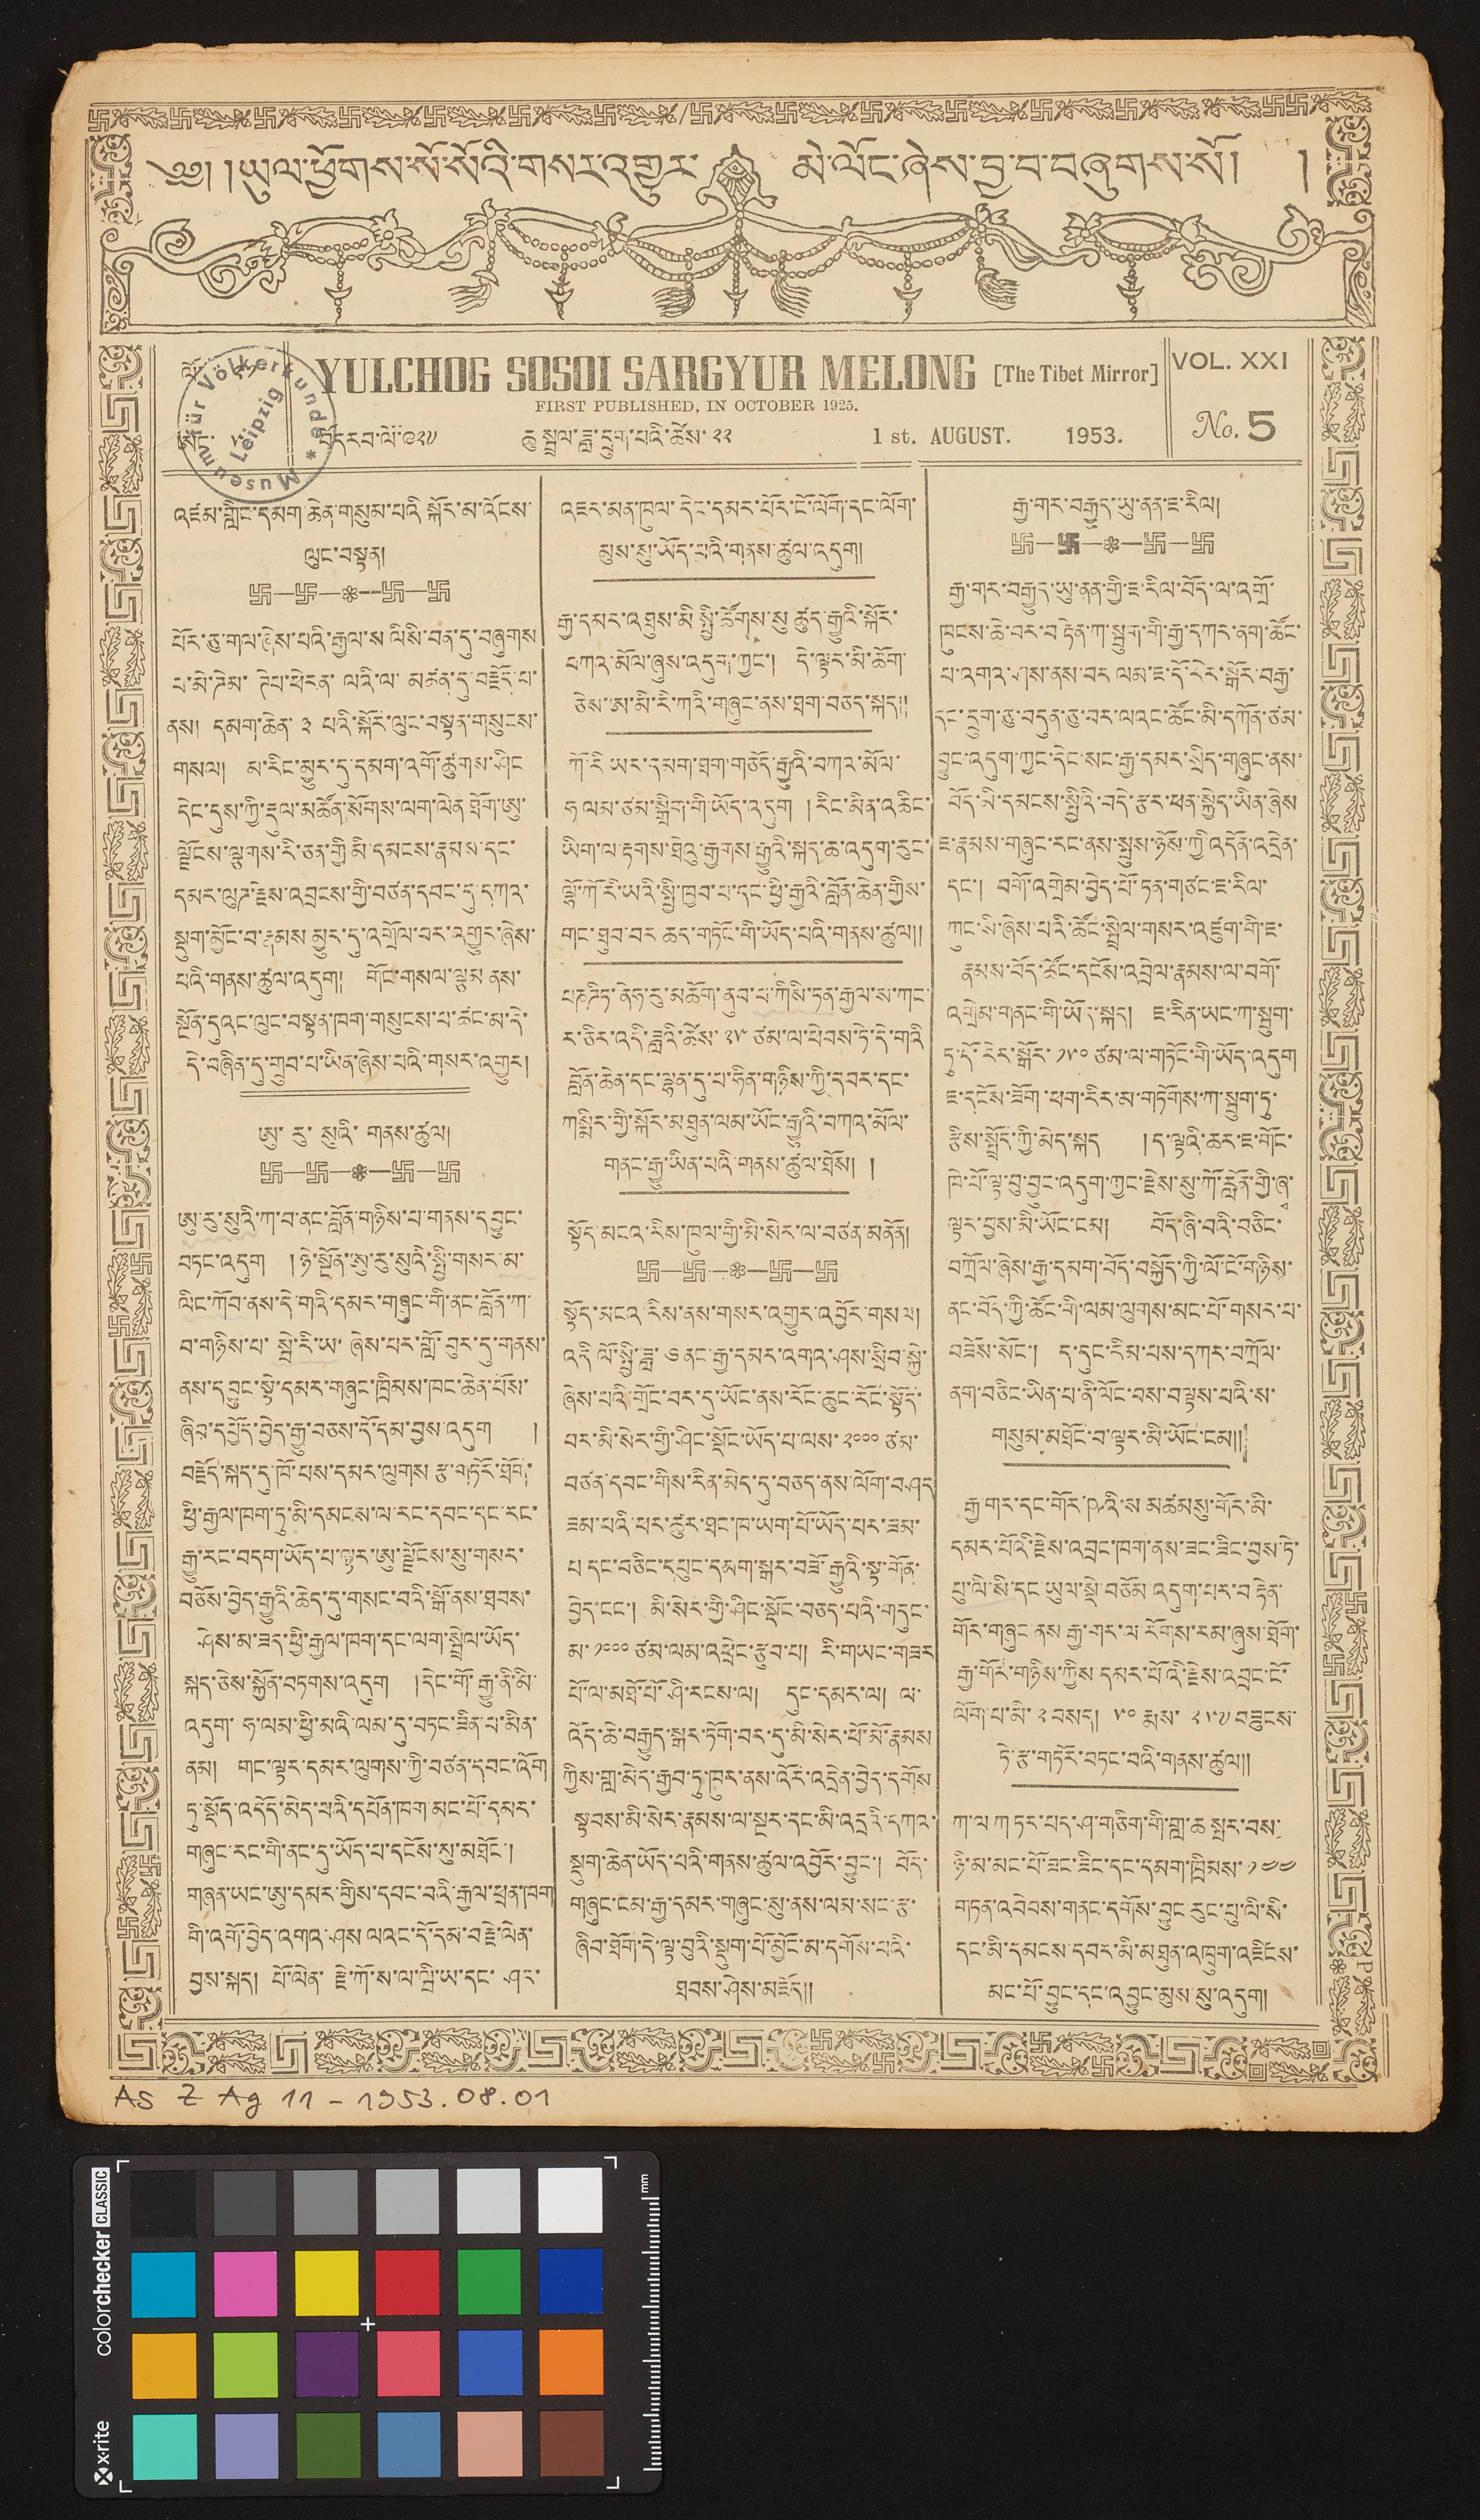༄༅། །ཡུལ་ཕྱོགས་སོ་སོའི་གསར་འགྱུར་ མེ་ལོང་ཞེས་བྱ་བ་བཞུགས་སོ། །
VOL. XXI
No. 5
ལོ་ ༢༡
ཨང་ ༥
YOLCHOG SOSOI SARGYUR MELONG. [The Tibet Mirror]
FIRST PUBLISHED, IN OCTOBER 1925.
བོད་རབ་ལོ་༩༢༧
ཆུ་སྤྲལ་ཟླ་དྲུག་པའི་ཚེས་ ༢༢
1st AUGUEST. 1953.
འཛམ་གླིང་དམག་ཆེན་གསུམ་པའི སྐོར་མ་འོངས་
ལུང་བསྟན།
པོར་ཅུ་གལ་ཞེས་པའི་རྒྱལ་ས ལིསི་བན་དུ་བཞུགས
པ་མེ་ཌེམ་ཊེཔ་ཕེརན་ལའི་ལ་མཚན་དུ་བརྗོད་པ་
ནས། དམག་ཆེན་ ༣ པའི་སྐོར་ལུང་བསྟན་གསུངས་
གསལ། མ་རིང་མྱུར་དུ་དམག་འགོ་ཚུགས་ཤིང་
དེང་དུས་ཀྱི་རྡུལ་མཚོན་སོགས་ལག་ལེན ཐོན་ཨུ་
ལྗོངས་ལྕགས་རི་ཅན་གྱི མི་དམངས་རྣམས་དང་
དམར་ལུཌ་རྗེས་འབྲངས་གྱི་བཙན་དབང་དུ་དཀའ་
སྡུག་མྱོང་བ་རྣམས མྱུར་དུ་འགྲོལ་བར་འགྱུར་ཞེས་
པའི་གནས་ཚུལ་འདུག།། གོང་གསལ་ལྕམ ནས་
སྔོན་དུའང་ལུང་བསྟན་ཁག་གསུངས་པ་ཚང་མ་དེ་
དེ་བཞིན་དུ་གྲུབ་པ་ཡིན་ཞེས་པའི་གསར་འགྱུར།
ཨུ་རུ་སུའི་གནས་ཚུལ།
ཨུ་རུ་སུའི་ཀ་བ་ནང་གཉིས་པ་གནས་དབྱུང་
བཏང་འདུག །ཉེ་སྔོན་ཨུ་རུ་སུའི་སྤྱི་གསར་མ་
ལིང་ཀོབ་ནས་དེ་གའི་དམར་གཞུང་གི་ནང་བློན་ཀ་
བ་གཉིས་པ་སྦེ་རི་ཡ་ཞེས་པར་གློ་བུར་དུ་གནས་
ནས་དབྱུང་སྟེ་དམར་གཞུང་ཁྲིམས་ཁང་ཆེན་པོས་
ཞིབ་དཔྱོད་བྱེད་རྒྱུ་བཅས་དོ་དམ་བྱས་འདུག །
བརྗོད་སྐད་དུ་ཁོ་པས་དམར་ལུགས རྩ་གཏོར་ཐོག་
ཕྱི་རྒྱལ་ཁག་ཏུ་མི་དམངས་ལ་རང་དབང་དང་རང་
རྒྱུ་རང་བདག་ཡོད་པ་ལྟར་ཨུ་ལྗོངས་གསར་
ནྕོས་བྱེད་རྒྱུའི་ཆེད་དུ་གསང་བའི་སྒོ་ནས་ཐབས་
ཤེས་མ་ཟད་ཕྱི་རྒྱལ་ཁག་དང་ལག་སྤྲེལ་ཡོད་
སྐད་ཅེས་སྐྱོན་བཏགས་འདུག།།དེང་གོ་རྒྱུ་ནི་མི་
འདུག་ཧ་ཨ་ལམ་ཕྱི་མིའི་ལམ་དུ་བཏང་ཟིན་པ་མིན་
ནམ། གང་ལྟར་དམར་ལུགས་ཀྱི་བཙན་དབང་འོག
ཏུ་སྡོད་འདོད་མེད་པའི་དཔོན་ཁག་མང་པོ་དམར་
གཞུང་རང་གི་ནང་དུ་ཡོད་པ་དངོས་སུ་མཐོང་།
གཞན་ཡང་ཨུ་དམར་གྱིས་དབང་བའི་རྒྱལ་ཕྲན་ཁག
གི་འགོ་བྱེད་འགའ་ཤས ལའང་དོ་དོམ་བརྗེ་ལེན་
བྱས་སྐད། པོ་ལེན་རྗེ་ཀོ་ས་ལ་ཝི་ཡ་དང་ཤར་
འཇར་མན་ཁུལ་དེང་དམར་པོར་ངོ་ལོག་དང་ལོག་
མུས་སུ་ཡོད་པའི་གནས་ཚུལ་འདུག།།
རྒྱ་དམར་འཐུས་མི སྤྱི་ཚོགས་སུ ཚུད་རྒྱུའི་སྐོར་
བཀའ་མོལ་ཞུས་འདུག་ཀྱང་། དེ་ལྟར་མི་ཆོག་
ཅེས་ཨ་མི་རི་ཀའི་གཞུང་ནས་ཐག་བཅད་སྐད།།
ཀོ་རི ཡར་དམག་ཐག་གཅོད་རྒྱུའི་བཀའ་མོལ་
ཧ ལམ་ཙམ་སྒྲིག་གི་ཡོད་འདུག།།རིང་མིན་འཆིང་
ཡིག་ལ་རྟགས་ཐེའུ་རྒྱགས་རྒྱུའི་སྐད་ཆ་འདུག་རུང་
ལྷོ་ཀོ་རི་ཡའི་སྤྱི་ཁྱབ་པ་དང་ཕྱི་རྒྱའི་བློན་ཆེན་གྱིས་
གང་ཐུབ་བར ཆད་གཏོང་གི་ཡོད་པའི་གནས་ཚུལ།།
པཎཌིཏ་ནེཧ་རུ་མཆོག་ནུབ་པ་ཀིསི་ཏན་རྒྱལ་ས་ཀང་
ར་ཅིར་འདི་ཟླའི་ཚེས་ ༢༥ ཙམ་ལ་ཕེབས་ཏེ་དེ་གའི
བློན་ཆེན་དང་ལྷན་དུ་པ་ཧིན་གཉིས་ཀྱི་དབར་དང་
ཀསྨིར་གྱི་སྐོར་མཐུན་ལམ་ཡོང་རྒྱུའི་བཀའ་མོལ་
གནང་རྒྱུ་ཡིན་པའི་གནས་ཚུལ་ཐོས།།
སྟོད་མངའ་རིས་ཁུལ་གྱི་མི་སེར་ལ་བཙན་མནོན།
སྟོད་མངའ་རིས་ནས་གསར་འགྱུར་འབྱོར་གསལ།
འདི་ལོ་སྤྱི་ཟླ་༦ནང་རྒྱ་དམར་འགའ་ཤས་སྲིབ་སྐྱེ་
ཞེས་པའི་གྲོང་བར་དུ་ཡོང་ནས་རོལ་ཆུང་རོང་སྟོད་
བར་མི་སེར་གྱི་ཤིང་སྡོང་ཡོད་པ་ལས་༢༠༠༠ཙམ་
བཙན་དབང་གིས་རིན་མེད་དུ་བཅད་ནས་ལོག་བཤད
ཟམ་པའི་ཕར་ཚུར་ཐང་ཁ་ཡག་པོ་ཡོད་པར་ཟམ་
པ དང་བཅིང་དཔུང་དམག་སྒར་བཟོ་རྒྱུའི་སྟ་གོན་
བྱེད་ངང་། མི་སེར་གྱི་ཤིང་སྡོང་བཅད་པའི་གདུང་
མ་༡༠༠༠ཙམ་ལམ་འཕྲེང་རྩུབ་པ། རི་གྱང་གཟར
པོ་ལ་མཐོ་པོ་ཤི་རངས་ལ། དུང་དམར་ལ། ལ་
འོད་ཆེ་བརྒྱུད་སྒར་ཏོག་བར་དུ་མི་སེར་ཕོ་མོ་རྣམས
ཀྱིས་གླ་མེད་རྒྱབ་ཏུ་ཁུར་ནས་འོར་འདྲེན་བྱེད་དགོས
སྟབས་མི་སེང་རྣམས་ལ་སྔར་དང་མི་འདྲའི་དཀའ་
སྡུག་ཆེན་ཡོད་པའི་གནས་ཚུལ་འབྱོར་བྱུང་། བོད་
གཞུང་ངམ་རྒྱ་དམར་གཞུང་སུ་ནས་ལམ་སང་རྩ་་
ཞིབ་ཐོག་དེ་ལྟ་བུའི་སྡུག་པོ་མྱོང་མ་དགོས་པའི་
ཐབས་ཤེས་མཛོད།།
རྒྱ་གར་བརྒྱུད་ཡུ་ནན་ཇ་རིལ།
རྒྱ་གར་བརྒྱུད་ཨུ་ནན་གྱི་ཇ་རིལ་བོད་ལ་འགྲོ་
ཁུངས་ཆེ་བར་བརྟེན་ཀ་སྤུག་གི་རྒྱ་དཀར་ནང་ཚོང་
པ་འགའ་ཤས་ནས་བར ལམ་ཇ་དོ་རེར་སྒོར་བརྒྱ་
དང་དྲུང་ཅུ་བདུན་ཅུ་པར་ལའང་ཚོང་མི་དཀོན་ཙམ་
བྱུང་འདུག་ཀྱང་དེང་སང་རྒྱ་དམར་སྲིད་གཞུང་ནས་
བོད་མི་དམངས་སྤྱིའི་བདེ་རྩར་ཕན་སྐྱེད་ཡིན་ཞེས
ཇ་རྣམས་གཞུང་རང་ནས་སྤུས་ཉོས་ཀྱི་འདོན་འདྲེན་
དང་། བགོ་འགྲེམ་བྱེད་པོ་ཏན་གཙང་ཇ་རིལ་
ཀུང་སི་ཞེས་པའི་ཚོང་སྤྲེལ་གསར་འཛུག་གི་ཇ་
རྣམས་བོད་ཚོང་དངོས་འབྲེལ་རྣམས་ལ་བགོ་
འགྲེམ་གནང་གི་ཡོད་སྐད། ཇ་རིན་ཡང་ཀ་སྤུག་
ཏུ་དོ་རེར་སྒོར་ ༡༥༠ ཙམ་ལ་གཏོང་གི་ཡོད་འདུག
ཇ་དངོས་ཟོག་ཕག་རིང་མ་གཏོགས་ཀ་སྤུག་ཏུ་
རྩིས་སྤྲོད་ཀྱི་མེད་སྐད །ད་ལྟའི་ཆར་ཇ་གོང་
ཁེ་པོ་ལྟ་བུ་བྱུང་འདུག་ཀྱང་རྗེས་སུ་ཀོ་རློང་གྱི་ཞྭ་
ལྟར་བྱས་མི་ཡོང་ངམ། བོད་ཞི་བའི་བཅིང་
བཀྲོལ་ཞེས་རྒྱ་དམག་བོད་སྐྱོད་ཀྱི་ལོ་ངོ་གཉིས་
ནང་བོད་ཀྱི་ཚོང་གི་ལམ་ལུགས་མང་པོ་གསར་པ་
བཟོས་སོང་། ད་དུང་རིམ་པས་དཀར་བཀྲོལ་
ནག་བཅིང་ཡིན་པ་ནི་ལོང་བས་བལྟས་པའི་ས་
གསུམ་མཐོང་བ་ལྟར་མི་ཡོང་ངམ།།
རྒྱ་གར་དང་གོར་ཥའི་ས་མཚུམསུ་གོར་མི་
དམར་པོའི་རྗེས་འབྲིང་ཁག་ནས་ཟང་ཟིང་བྱས་ཏེ་
པུ་ལི་སི་དང་ཡུལ་སྡེ་བཅོམ་འདུག་པར་བརྟེན་
གོར་གཞུང་ནས་རྒྱ་གར་ལ་རོགས་རམ་ཞུས་ཐོག་
རྒྱ་གར་གཉིས་ཀྱིས་དམར་པོའི་རྗེས་འབྲང་ངོ་
ལོག་པ་མི་༢བསད། ༥༠ རྨས་ ༢༥༧བཟུངས་
ཏེ་རྩ་གཏོར་བཏང་བའི་གནས་ཚུལ།།
ཀ་ལ ཀ ཏར་པད་གཅིག་གི་གླ་ཆ་སྤར་བས་
ཉི་མ་མང་པོ་ཟང་ཟིང་དང་དམག་ཁྲིམས་༡༤༤
གཏན་འབེབས་གནང་དགོས་བྱུང་རུང་པུ་ལི་སི་
དང་མི་དམངས་དབར་མི་མཐུན་འཁྲུག་འཛིངས་
མང་པོ་བྱུང་དང་འབྱུང་མུས་སུ་འདུག།།
